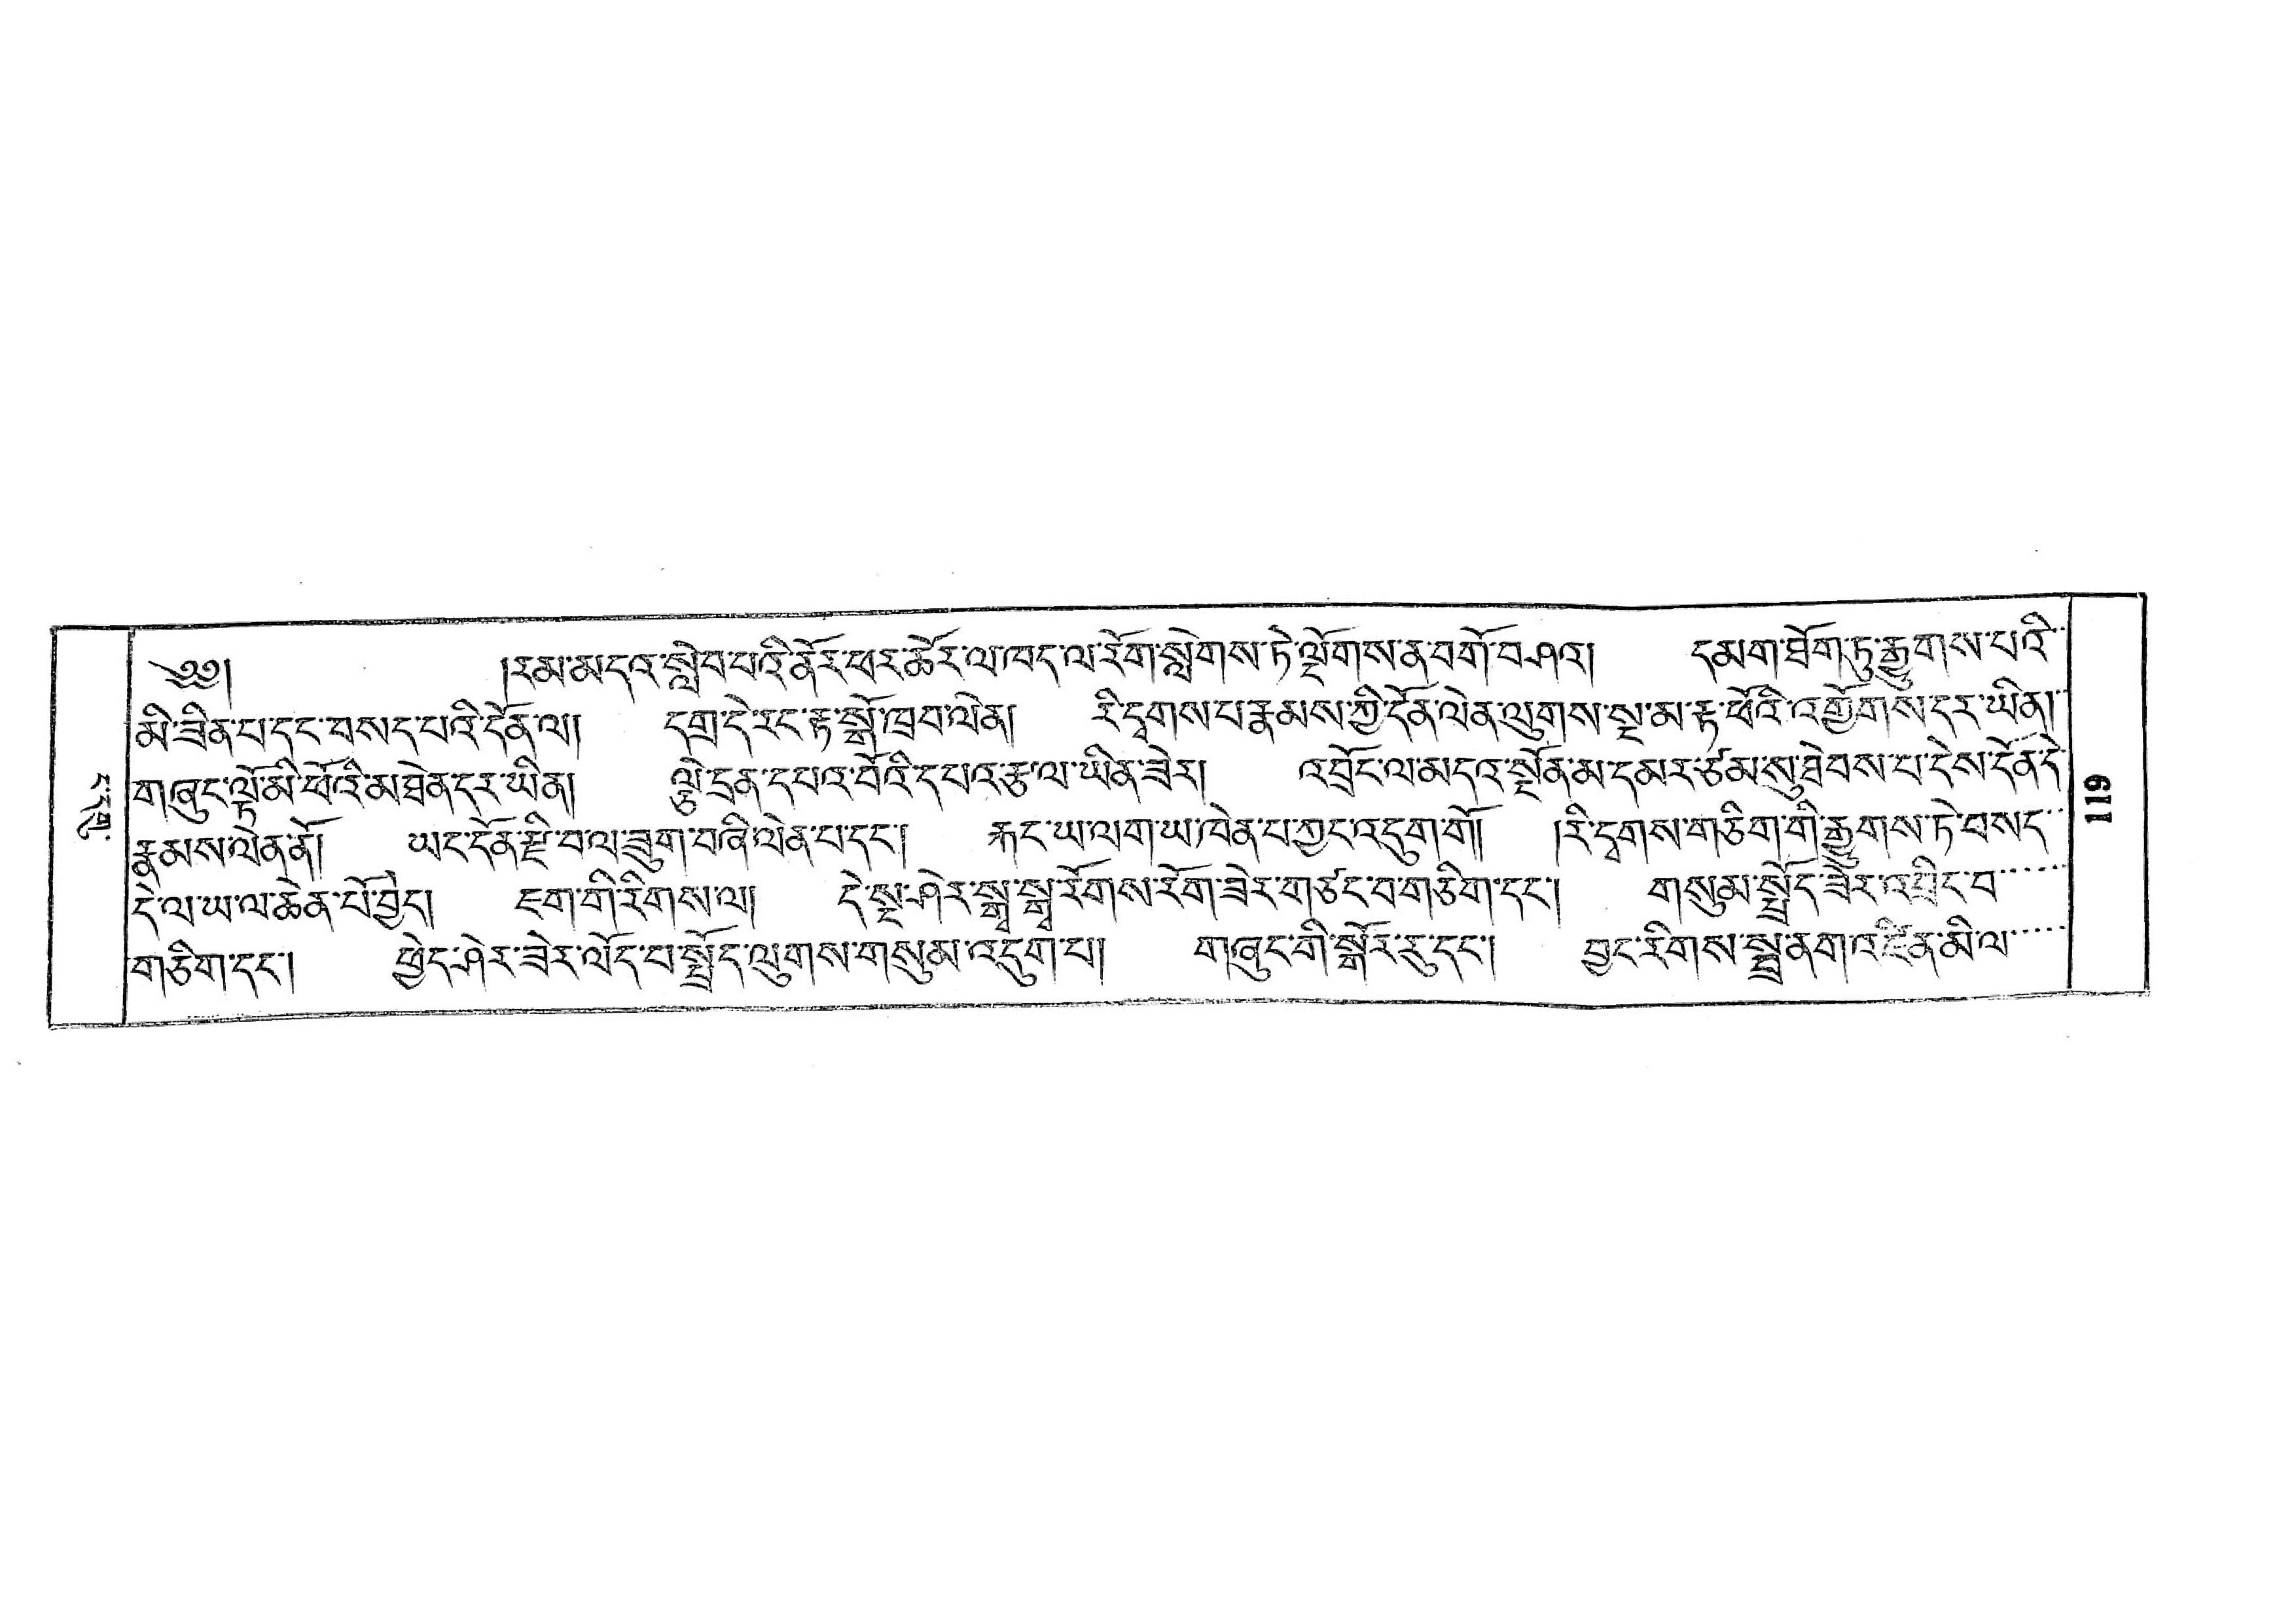ང་དགུ་
༄༅།  །རམ་མདའ་སླེབ་པའི་ནོར་ཕར་ཆོར་ལ་ཁད་ལ་རོག་སླེགས་ཏེ་ལྔོགས་ན་བགོ་བཤའ། དམག་ཐོག་ཏུ་རྒྱུགས་པའི་་
མི་ཟིན་པ་དང་བསད་པའི་དོན་ལ། དགྲ་དེ་རང་རྟ་སྒོ་ཁྲབ་ལེན། རི་དྭགས་པ་རྣམས་ཀྱི་དོན་ལེན་ལུགས་སྔ་མ་རྟ་ཕོའི་འགྱོགས་དར་ཡིན། ་་
གཞུང་ལྟོ་མི་ཕོའི་མཐེན་དར་ཡིན། ལྕེ་དྲན་དཔར་བོའི་དཔའ་རྩ་ལ་ཡིན་ཟེར། འབྲོང་ལ་མདའ་སྔོན་མ་དམར་ཙམ་སུ་ཐེབས་པ་ངེས་དོན་དེ་
རྣམས་ལེན་ནོ། ཡང་དོན་རྫི་བལ་ཟུག་བཞི་ལེན་པ་དང་། རྐང་ཡ་ལག་ཡ་ཁེན་པ་ཀྱང་འདུག་གོ། །རི་དྭགས་གཅིག་གི་རྒྱུགས་ཏེ་བསད་་
དེ་ལ་ཡ་ལ་ཆེན་པོ་བྱེད། ཇག་གི་རིགས་ལ། དེ་སྔ་ཤེར་སྒྭ་སྒྭ་རོགས་རོག་ཟེར་གཙང་བ་གཅིག་དང་། གསུམ་སྤྲོད་ཟེར་འབྲིང་བ་་་་་་
གཅིག་དང་། ཕྱེད་ཤེར་ཟེར་ལོད་པ་སྤྲོད་ལུགས་གསུམ་འདུག་པ། གཞུང་གི་སྒོར་རུ་དང་། བྱང་རིགས་སྦྲ་ནག་འཛིན་མི་ལ་་་་་
